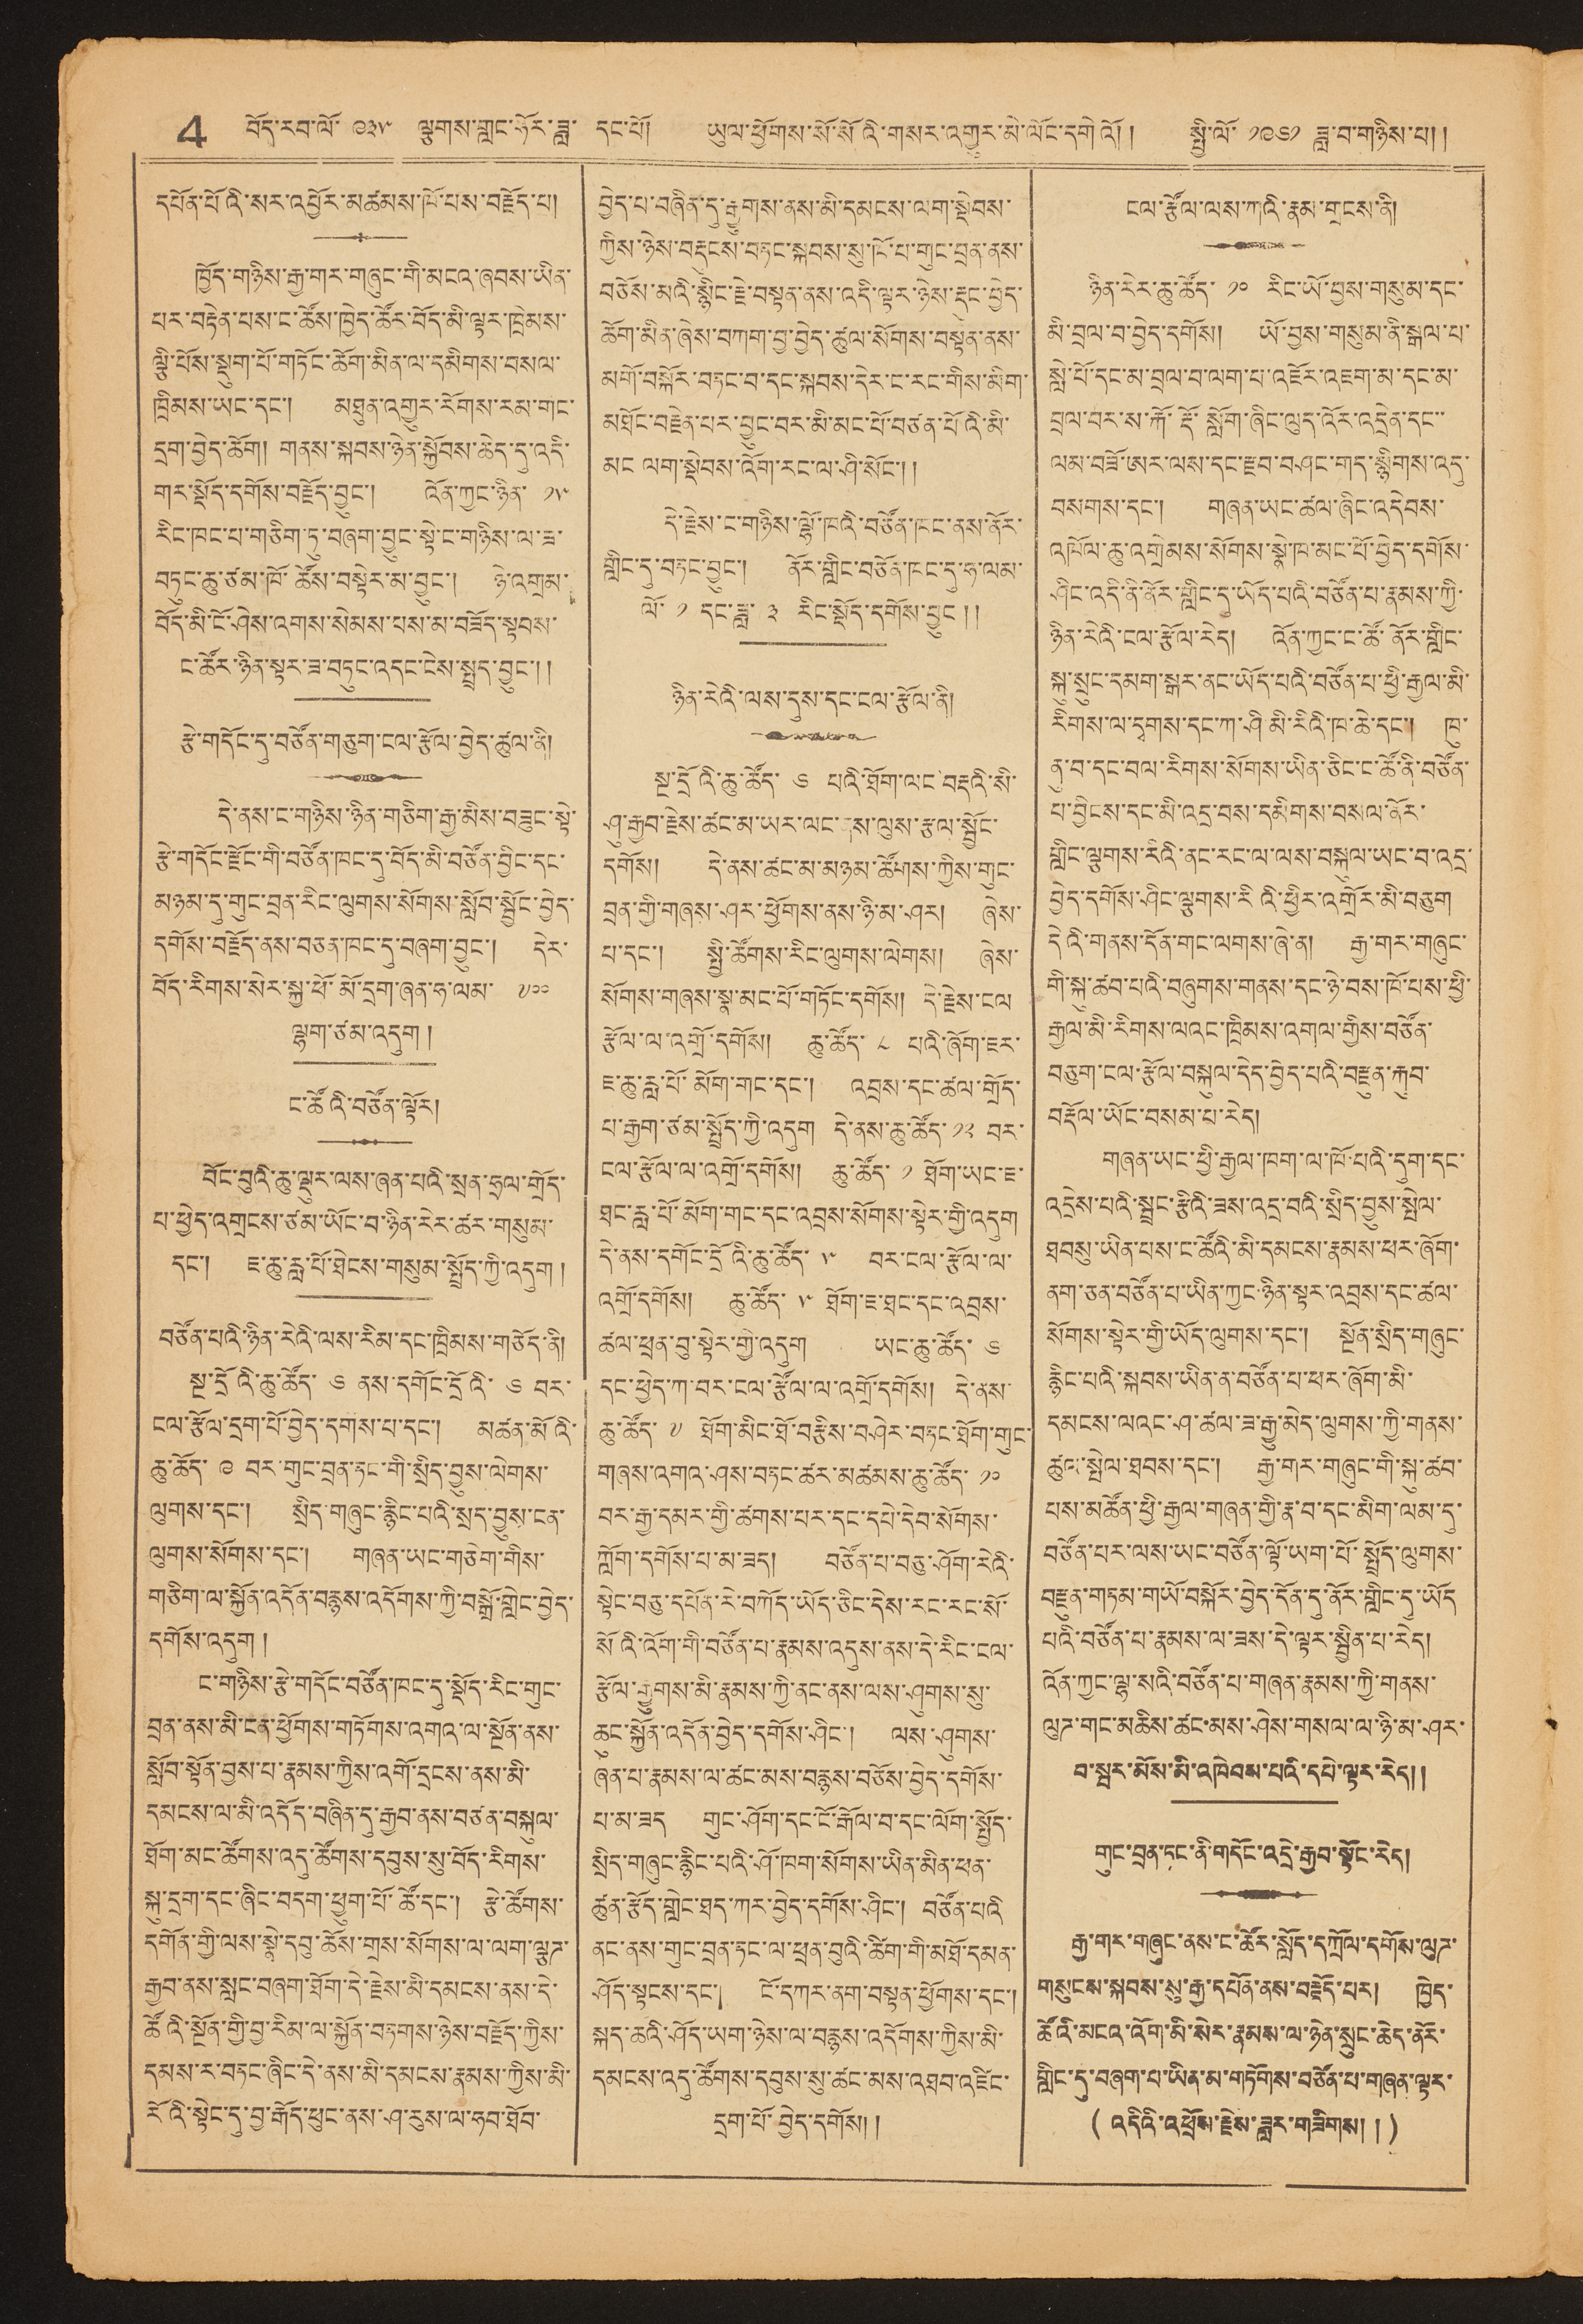4 བོད་རབ་ལོ་ ༩༣༥ ལྕགས་གླང་ཧོར་ཟླ་ དང་པོ། ཡུལ་ཕྱོགས་སོ་སོའི་གསར་འགྱུར་མེ་ལོང་དགེའོ། སྤྱི་ལོ་ ༡༩༦༡ ཟླ་བ་གཉིས་པ། །
དཔོན་པོའི་སར་འབྱོར་མཚམས་ཁོ་པས་བརྗོད་པ།
ཁྱོད་གཉིས་རྒྱ་གར་གཞུང་གི་མངའ་ཞབས་ཡིན་
པར་བརྟེན་པས་ང་ཚོས་ཁྱེད་ཚོར་བོད་མི་ལྟར་ཁྲིམས་
ལྕི་པོས་སྡུག་པོ་གཏོང་ཆོག་མིན་ལ་དམིགས་བསལ་
ཁྲིམས་ཡང་དང་། མཐུན་འགྱུར་རོགས་རམ་གང་
དྲག་བྱེད་ཆོག། གནས་སྐབས་ཉེན་སྐྱོབས་ཆེད་དུ་འདི་
གར་སྡོད་དགོས་བརྗོད་བྱུང་། འོན་ཀྱང་ཉིན་ ༡༥
རིང་ཁང་པ་གཅིག་ཏུ་བཞག་བྱུང་སྟེ་ང་གཉིས་ལ་ཟ་
བཏུང་ཆུ་ཙམ་ཁོ་ཚོས་བསྟེར་མ་བྱུང་། ཉེ་འགྲམ་
བོད་མི་ངོ་ཤེས་འགས་སེམས་པས་མ་བཟོད་སྟབས་
ང་ཚོར་ཉིན་སྟར་ཟ་བཏུང་འདང་ངེས་སྤྲད་བྱུང་།།
རྩེ་གདོང་དུ་བཙོན་གཅུག་ངལ་རྩོལ་བྱེད་ཚུལ་ནི།
དེ་ནས་ང་གཉིས་ཉིན་གཅིག་རྒྱ་མིས་བཟུང་སྟེ་
རྩེ་གདོང་རྫོང་གི་བཙོན་ཁང་དུ་བོད་མི་བཙོན་བྱིང་དང་
མཉམ་དུ་གུང་བྲན་རིང་ལུགས་སོགས་སློབ་སྦྱོང་བྱེད་
དགོས་བརྗོད་ནས་བཅན་ཁང་དུ་བཞག་བྱུང་། དེར་
བོད་རིགས་སེར་སྐྱ་ཕོ་མོ་དྲག་ཧ་ལམ་ ༧༠༠
ལྷག་ཙམ་འདུག །
ང་ཚོའི་བཙོན་ལྟོར།
བོང་བུའི་ཆུ་ལྡུར་ལས་ཞན་པའི་སྲན་ཧྲལ་གྲོད་
པ་ཕྱེད་འགྲངས་ཙམ་ཡོང་བ་ཉིན་རེར་ཚར་གསུམ་
དང་། ཇ་ཆུ་རླ་པོ་ཐེངས་གསུམ་སྤྲོད་ཀྱི་འདུག །
བཙོན་པའི་ཉིན་རེའི་ལས་རིམ་དང་ཁྲིམས་གཅོད་ནི།
སྔ་དྲོའི་ཆུ་ཚོད་ ༦ ནས་དགོང་དྲོའི་ ༦ བར་
ངལ་རྩོལ་དྲག་པོ་བྱེད་དགོས་པ་དང་། མཚན་མོའི་
ཆུ་ཚོད་ ༩ བར་གུང་བྲན་ཏང་གི་སྲིད་བྱུས་ལེགས་
ལུགས་དང་། སྲོད་གཞུང་རྙིང་པའི་སྲད་བྱུས་ངན་
ལུགས་སོགས་དང་། གཞན་ཡང་གཅིག་གིས་
གཅིག་ལ་སྐྱོན་འདོན་བརྙས་འདོགས་ཀྱི་བསྒྲོ་གླེང་བྱེད་
དགོས་འདུག །
ང་གཉིས་རྩེ་གདོང་བཙོན་ཁང་དུ་སྡོད་རིང་གུང་
བྲན་ནས་མི་ངན་ཕྱོགས་གཏོགས་འགའ་ལ་སྔོན་ནས་
སློབ་སྟོན་བྱས་པ་རྣམས་ཀྱིས་འགོ་དྲངས་ནས་མི་
དམངས་ལ་མི་འདོད་བཞིན་དུ་རྒྱབ་ནས་བཙན་བསྐུལ་
ཐོག་མང་ཚོགས་འདུ་ཚོགས་དབུས་སུ་བོད་རིགས་
སྐུ་དྲག་དང་ཞིང་བདག་ཕྱུག་པོ་ཚོ་དང། རྩེ་ཚོགས་
དགོན་གྱི་ལས་སྣེ་དབུ་ཆོས་གྲས་སོགས་ལ་ལག་ལྕཊ་
རྒྱབ་ནས་སླང་བཞག་ཐོག་དེ་རྗེས་མི་དམངས་ནས་དེ་
ཚོའི་སྔོན་གྱི་བྱ་རིམ་ལ་སྐྱོན་བཏགས་ཉེས་བརྗོད་ཀྱིས་
དམས་ར་བཏང་ཞིང་དེ་ནས་མི་དམངས་རྣམས་ཀྱིས་མི་
རོའི་སྟེང་དུ་བྱ་རྒོད་ཕུང་ནས་ཤ་རུས་ལ་ཧབ་ཐོབ་
བྱེད་པ་བཞིན་དུ་རྒྱུགས་ནས་མི་དམངས་ལག་སྡེབས་
ཀྱིས་ཉེས་བརྡུངས་བཏང་སྐབས་སུ་ཁོ་པ་གུང་བྲན་ནས་
བཅོས་མའི་སྙིང་རྗེ་བསྟན་ནས་འདི་ལྟར་ཉེས་རྡུང་བྱེད་
ཆོག་མིན་ཞེས་བཀག་བྱ་བྱེད་ཚུལ་སོགས་བསྟན་ནས་
མགོ་བསྐོར་བཏང་བ་དང་སྐབས་དེར་ང་རང་གིས་མིག་
མཐོང་བརྗེན་པར་བྱུང་བར་མི་མང་པོ་བཙན་པོའི་མི་
མང ལག་སྡེབས་འོག་རང་ལ་ཤི་སོང་།།
དེ་རྗེས་ང་གཉིས་ལྷོ་ཁའི་བཙོན་ཁང་ནས་ནོར་
གླིང་དུ་བཏང་བྱུང་། ནོར་གླིང་བཙོན་ཁང་དུ་ཧ་ལམ་
ལོ་ ༡ དང་ཟླ་ ༣ རིང་སྡོད་དགོས་བྱུང །།
ཉིན་རེའི་ལས་དུས་དང་ངལ་ཙོལ་ནི།
སྔ་དྲོའི་ཆུ་ཚོད་ ༦ པའི་ཐོག་ལང་བརྡའི་སི་
ཤུ་རྒྱབ་རྗེས་ཚང་མ་ཡར་ལང་ནས་ལུས་རྩལ་སྦྱོང་
དགོས། དེ་ནས་ཚང་མ་མཉམ་ཚོགས་ཀྱིས་གུང་
བྲན་གྱི་གཞས་ཤར་ཕྱོགས་ནས་ཉི་མ་ཤར། ཞེས་
པ་དང་། སྤྱི་ཚོགས་རིང་ལུགས་ལེགས། ཞེས་
སོགས་གཞས་སྣ་མང་པོ་གཏོང་དགོས། དེ་རྗེས་ངལ
རྩོལ་ལ་འགྲོ་དགོས། ཆུ་ཚོད་ ༨ པའི་ཞོག་ཇར་
ཇ་ཆུ་རླ་པོ་མོག་གང་དང་། འབྲས་དང་ཚལ་གྲོད་
པ་རྒྱག་ཙམ་སྤྲོད་ཀྱི་འདུག དེ་ནས་ཆུ་ཚོད་ ༡༢ བར་
ངལ་རྩོལ་ལ་འགྲོ་དགོས། ཆུ་ཚོད་ ༡ ཐོག་ཡང་ཇ་
ཐང་རླ་པོ་མོག་གང་དང་འབྲས་སོགས་སྟེར་གྱི་འདུག
དེ་ནས་དགོང་དྲོའི་ཆུ་ཚོད་ ༥ བར་ངལ་ཙོལ་ལ་
འགྲོ་དགོས། ཆུ་ཚོད་ ༥ ཐོག་ཇ་ཐང་དང་འབྲས་
ཚལ་ཕྲན་བུ་སྟེར་གྱི་འདུག ཡང་ཆུ་ཚོད་ ༦
དང་ཕྱེད་ཀ་བར་ངལ་ཙོལ་ལ་འགྲོ་དགོས། དེ་ནས་
ཆུ་ཚོད་ ༧ ཐོག་མིང་ཐོ་བརྩིས་བཤེར་བཏང་ཐོག་གུང་
གཞས་འགའ་ཤས་བཏང་ཚར་མཚམས་ཆུ་ཚོད་ ༡༠
བར་རྒྱ་དམར་གྱི་ཚགས་པར་དང་དཔེ་དེབ་སོགས་
ཀློག་དགོས་པ་མ་ཟད། བཙོན་པ་བཅུ་ཤོག་རེའི་
སྟེར་བཅུ་དཔོན་རེ་བཀོད་ཡོད་ཅིང་དེས་རང་རང་སོ་
སོའི་འོག་གི་བཙོན་པ་རྣམས་འདུས་ནས་དེ་རིང་ངལ་
རྩོལ་རྒྱུགས་མི་རྣམས་ཀྱི་ནང་ནས་ལས་ཤུགས་སུ་
ཆུང་སྐྱོན་འདོན་བྱེད་དགོས་ཤིང་། ལས་ཤུགས་
ཞན་པ་རྣམས་ལ་ཚང་མས་བརྙན་བཅོས་བྱེད་དགོས་
པ་མ་ཟད གུང་ཤོག་དང་ངོ་རྒོལ་བ་དང་ལོག་སྤྱོད་
སྲིད་གཞུང་རྙིང་པའི་ཤོ་ཁག་སོགས་ཡིན་མིན་ཕན་
ཚུན་རྩོད་གླེང་ཐད་ཀར་བྱེད་དགོས་ཤིང་། བཙོན་པའི་
ནང་ནས་གུང་བྲན་ཏང་ལ་ཕྲན་བུའི་ཚིག་གི་མཐོ་དམན་
ཤོག་སྟངས་དང་། ངོ་དཀར་ནག་བསྟན་ཕྱོགས་དང་།
སྐད་ཆའི་ཤོད་ཡག་ཉེས་ལ་བརྙས་འདོགས་ཀྱིས་མི་
དམངས་འདུ་ཚོགས་དབུས་སུ་ཚང་མས་འཐབ་འཛིང་
དྲག་པོ་བྱེད་དགོས།།
ངལ་ཙོལ་ལས་ཀའི་རྣམ་གྲངས་ནི།
ཉིན་རེར་ཆུ་ཚོད་ ༡༠ རིང་ཡོ་བྱས་གསུམ་དང་
མི་བྲལ་བ་བྱེད་དགོས། ཡོ་བྱས་གསུམ་ནི་སྒལ་པ་
སླེ་པོ་དང་མ་བྲལ་བ་ལག་པ་འཇོར་འཇག་མ་དང་མ་
བྲལ་བར་ས་རྐོ་རྡོ་སློག་ཞིང་ལུད་འོར་འདྲེན་དང་་
ལམ་བཟོ་ཨར་ལས་དང་རྫབ་བཤང་གད་སྙིགས་འདུ་
བསགས་དང་། གཞན་ཡང་ཚལ་ཞིང་འདེབས་
འཁོལ་ཆུ་འགྲེམས་སོགས་སྣེ་ཁ་མང་པོ་བྱེད་དགོས་
ཤིང་འདི་ནི་ནོར་གླིང་དུ་ཡོད་པའི་བརྩོན་པ་རྣམས་ཀྱི་
ཉིན་རེའི་ངལ་རྩོལ་རེད། འོན་ཀྱང་ང་ཚོ་ནོར་གླིང་
སྐུ་སྲུང་དམག་སྒར་ནང་ཡོད་པའི་བཙོན་པ་ཕྱི་རྒྱལ་མི་
རིགས་ལ་དྭགས་དང་ཀ་ཤི་མི་རིའི་ཁ་ཆེ་དང་། ཁུ་
ནུ་བ་དང་བལ་རིགས་སོགས་ཡིན་ཅིང་ང་ཚོ་ནི་བཙོན་
པ་བྱིངས་དང་མི་འདྲ་བས་དམིགས་བསལ་ནོར་
གླིང་ལྕགས་རིའི་ནང་རང་ལ་ལས་བསྐུལ་ཡང་བ་འདྲ་
བྱེད་དགོས་ཤིང་ལྕགས་རིའི་ཕྱིར་འགྲོར་མི་བཅུག
དེའི་གནས་དོན་གང་ལགས་ཞེ་ན། རྒྱ་གར་གཞུང་
གི་སྐུ་ཚབ་པའི་བཞུགས་གནས་དང་ཉེ་བས་ཁོ་པས་ཕྱི་
རྒྱལ་མི་རིགས་ལའང་ཁྲིམས་འགལ་གྱིས་བརྩོན་
བཅུག་ངལ་ཙོལ་བསྐུལ་དེད་བྱེད་པའི་བརྫུན་རྐུབ་
བརྡོལ་ཡོང་བསམ་པ་རེད།
གཞན་ཡང་ཕྱི་རྒྱལ་ཁག་ལ་ཁོ་པའི་དུག་དང་
འདྲེས་པའི་སྦྲང་རྩིའི་ཟས་འདྲ་བའི་སྲིད་བྱུས་སྤེལ་
ཐབསུ་ཡིན་པས་ང་ཚོའི་མི་དམངས་རྣམས་ཕར་ཞོག་
ནག་ཅན་བཙོན་པ་ཡིན་ཀྱང་ཉིན་སྟར་འབྲས་དང་ཚལ་
སོགས་སྟེར་གྱི་ཡོད་ལུགས་དང་། སྔོན་སྲིད་གཞུང་
རྙིང་པའི་སྐབས་ཡིན་ན་བརྩོན་པ་ཕར་ཞོག་མི་
དམངས་ལའང་ཤ་ཚལ་ཟ་རྒྱུ་མེད་ལུགས་ཀྱི་གནས་
ཚུལ་སྤེལ་ཐབས་དང་། རྒྱ་གར་གཞུང་གི་སྐུ་ཚབ་
པས་མཚོན་ཕྱི་རྒྱལ་གཞན་གྱི་རྣ་བ་དང་མིག་ལམ་དུ་
བརྩོན་པར་ལས་ཡར་བརྩོན་ལྟོ་ཡག་པོ་སྤྲོད་ལུགས་
བརྫུན་གཏམ་གཡོ་བསྐོར་བྱེད་དོན་དུ་ནོར་གླིང་དུ་ཡོད
པའི་བཙོན་པ་རྣམས་ལ་ཟས་དེ་ལྟར་སྦྱིན་པ་རེད།
འོན་ཀྱང་ལྷ་སའི་བཙོན་པ་གཞན་རྣམས་ཀྱི་གནས་
ལུཊ་གང་མཆིས་ཚང་མས་ཤེས་གསལ་ལ་ཉི་མ་ཤར་
བ་སྦར་མོས་མི་འཁེབས་པའི་དཔེ་ལྟར་རེད།།
གུང་བྲན་ཏང་ནི་དགོང་འདྲེ་རྒྱབ་སྟོང་རེད།
རྒྱ་གར་གཞུང་ནས་ང་ཚོའི་སློད་དཀྲོལ་དགོས་ལུཊ་
གསུངས་སྐབས་སུ་རྒྱ་དཔོན་ནས་བརྗོད་པར། ཁྱེད་
ཚོའི་མངའ་འོག་མི་སེར་རྣམས་ལ་ཉེན་སྲུང་ཆེད་ནོར་
གླིང་དུ་བཞག་པ་ཡིན་མ་གཏོགས་བཙོན་པ་གཞན་ལྟར་
(འདིའི་འཕྲོས་རྗེས་ཟླར་གཟིགས།།)
